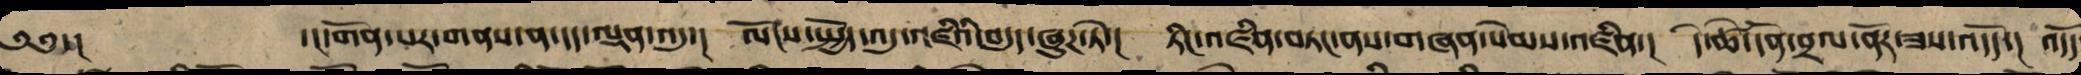༄༅་།  ་།དགོན་པར་གནས་ན་དད་ལྡན་འདུ་། ལོངས་སྤྱོད་འདུ་འཛིའི་བདུད་ཞུཌ་ཏེ་། ཏིང་འཛིན་བཏང་ནས་གཞན་སེམས་འཛིན་། དེ་ཚེ་དོན་བྲལ་ནོར་ཟས་འདོད་། འདོད
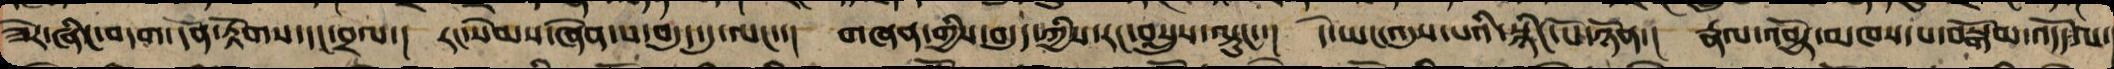ཟེར་ཞིང་བདག་རྟོགས་དོན་དང་བྲལ་། རང་སེམས་ཞེན་པ་བདུད་དུ་ལང་་། གཞན་གྱི་བདུད་ཀྱིས་རང་བསླུས་ལྟུང་་། དེ་ཡང་འདུས་པའི་སྙིང་པོ་ཉོན་། རྣལ་འབྱོར་མཁས་པ་བསྒོམ་འདོད་ལ་
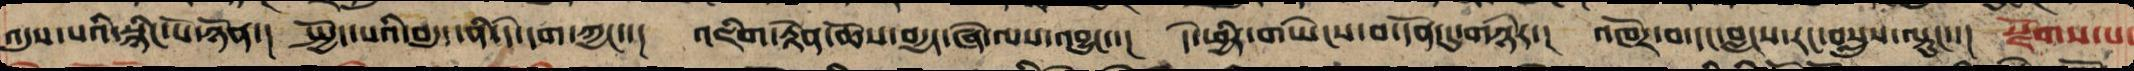འདུས་པའི་སྙིང་པོ་ཉོན་། སྤྱོད་པའི་བདུད་ནི་དེ་དག་ཀྱང་་། འཇིག་རྟེན་ཆོས་བདྱད་ཞེན་ལས་འབྱུང་་། དེ་ཕྱིར་གཡེང་བ་དོན་དུ་གཉེར་། འཁོར་བ་དང་བླངས་རང་བསླུས་ལྟུང་་། སྫོགས་པ་
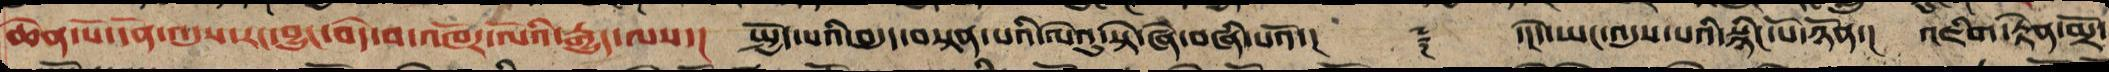ཆེན་པོ་དོན་འདུས་རང་བྱུང་བདེ་བའི་འཁོར་ལོའི་རྒྱུད་ལས་། སྤྱོད་པའི་བདུད་བསྟན་པའི་ལེའུ་སྟེ་ཞེ་བཞི་པའོ་།། ༈ ་།།དེ་ཡང་འདུས་པའི་སྙིང་པོ་ཉོན་། འཇིག་རྟེན་མྲོ་
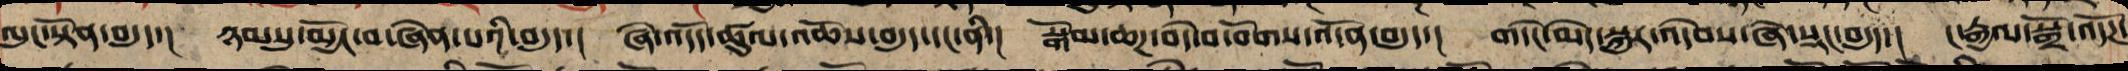ལུང་སྟོན་བདུད་། ཉམསུ་མྱོང་བ་ཞེན་པའི་བདུད་། ཞེ་འདོད་ཚུལ་འཆོས་བདུད་དང་ནི་། སྒོམ་ཆཌ་བདེ་བ་བོགས་འདོན་བདུད་། གདེང་མེད་སྐུར་འདེབས་ཞེ་སྡང་བདུད་། ང་རྒྱལ་སྒྲོ་འདོཌ་
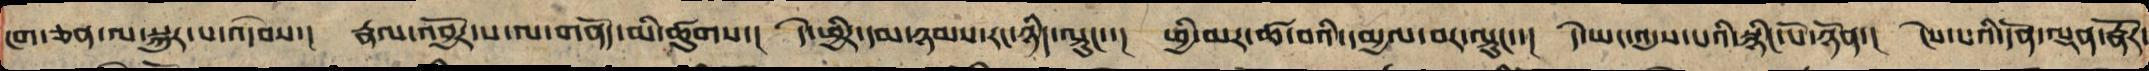ངག་ཅན་ལ་སྐུར་པ་འདེབས་། རྣལ་འབྱོར་པ་ལ་གནོད་མི་ཚུགས་། དེ་ཕྱིར་དམ་ཉམས་རང་ཉིད་ལྟུང་་། ཕྱི་མར་ཚ་བའི་དམྱལ་བར་ལྟུང་་། དེ་ཡང་འདུས་པའི་སྙིང་པོ་ཉོན་། ངེས་པའི་དོན་ལྡན་རྣོར་
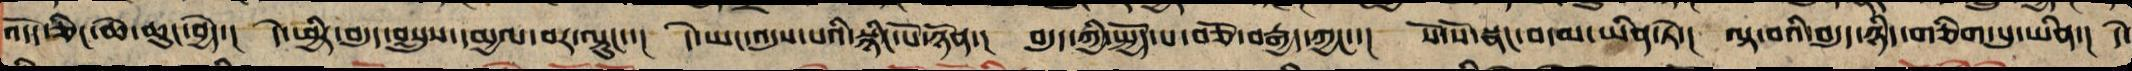འདོད་ཅིང་ཆེ་ཆུང་བྱེད་། དེ་ཕྱིར་བདུད་བསླུས་དམྱལ་བར་ལྟུང་་། དེ་ཡང་འདུས་པའི་སྙིང་པོ་ཉོན་། བདུད་ཀྱི་སྤྱོད་པ་བཅོ་བརྒྱད་ཀྱང་་། སོ་སོར་སྣང་བ་མ་ཡིན་ཏེ་། ལྟ་བའི་བདུད་ཉིད་གཅིག་པུ་ཡིན་། དེ་
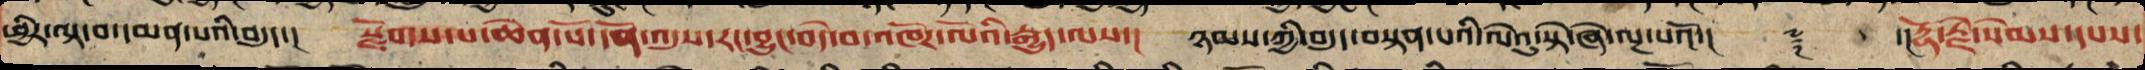ཕྱིར་ལྟ་བ་དམན་པའི་བདུད་། སྫོགས་པ་ཆེན་པོ་དོན་འདུས་རང་བྱུང་བདེ་བའི་འཁོར་ལོའི་རྒྱུད་ལས་། ཉམས་ཀྱི་བདུད་བསྟན་པའི་ལེའུ་སྟེ་ཞེ་ལྔ་པའོ་།། ༈ ་།།རྡོ་རྗེ་སེམས་དཔས་
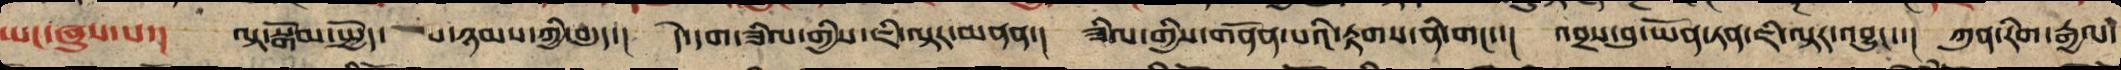ཡང་ཞུས་པ་། ལྟ་སྒོམ་སྤྱོད་པ་ཉམས་ཀྱི་བདུད་། དེ་དག་ཟིལ་གྱིས་ཇི་ལྟར་མནན་། ཟིལ་གྱིས་ནོན་པའི་རྟགས་ནི་གང་་། འབྲས་བུ་ཡོན་ཏན་ཇི་ལྟར་འབྱུང་་། ཀུན་རིག་རྒྱལ་
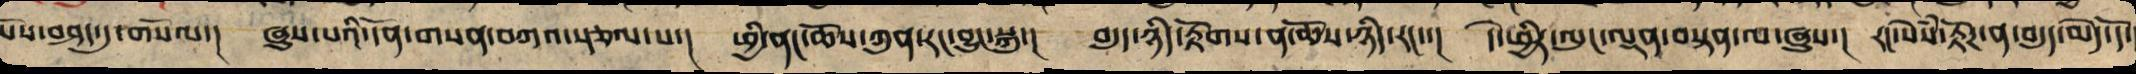པོས་བཤད་དུ་གསོལ་། ཞུས་པའི་དོན་གསན་བཀའ་སྩལ་པ་། ཕྱི་ནང་ཆོས་ཀུན་རང་བྱུང་སྐུ་། བདུད་ཉིད་རྟོགས་ན་ཆོས་ཉིད་རང་་། དེ་ཕྱིར་ལུང་ལྡན་བསྟན་ལ་ཞུགས་། རང་སེཾས་རྟོཌ་ན་བདུད་མེད་དོ་
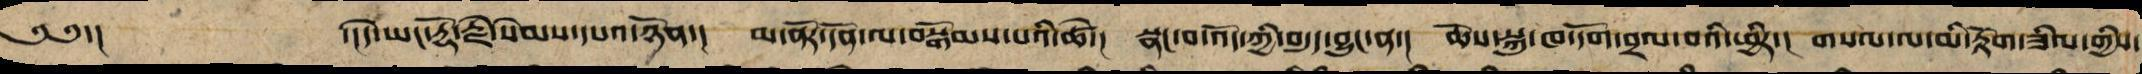༄༅་། དེ་ཡང་རྡོ་རྗེ་སེམས་དཔའ་ཉོན་། མ་ནོར་དོན་ལ་བསྒོམས་པའི་ཚེ་། སྣང་བ་འོད་ཀྱི་བདུད་བྱུང་ན་། ཆོས་སྐུ་ཁ་དོག་བྲལ་བའི་ཕྱིར་། གསལ་ལ་མི་རྟོག་ཟིལ་གྱིས་
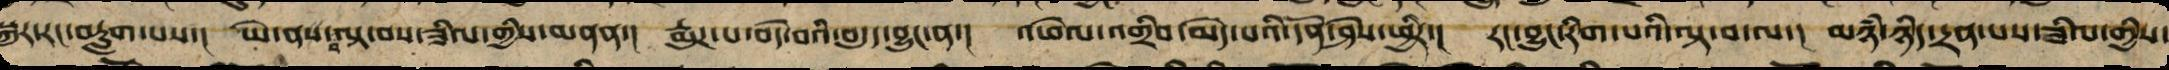སྐུར་རང་བརླག་པས་། ཡེ་གནས་ལྟ་བས་ཟིལ་གྱིས་མནན་། རྨུཌ་པ་བདེ་བའི་བདུད་བྱུང་ན་། འཕེལ་འགྲིབ་མེད་པའི་དོན་ཤེས་ཕྱིར་། རང་བྱུང་རིག་པའི་བལྟ་བ་ལ་། མཉཾ་ཉིད་དྲན་པས་ཟིལ་གྱིས་
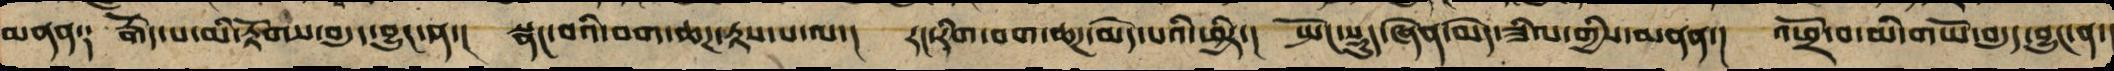མནན༑ རྒོད་པ་མི་རྟོགས་བདུད་བྱུང་ན་། སྣང་བའི་བག་ཆཌ་རྟས་པ་ལས་། རང་རིག་བག་ཆཌ་མེད་པའི་ཕྱིར་། སྤོང་སྡུད་ཞེན་མེད་ཟིལ་གྱིས་མནན་། འཕྲོ་བ་མི་གཡོ་བདུད་བྱུང་ན་།
